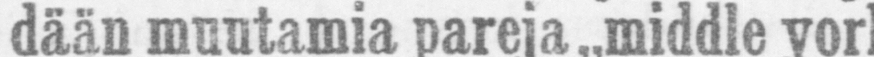schiren" porsaita.
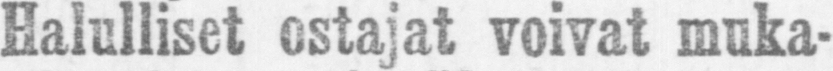Halulliset ostajat voivat muka-
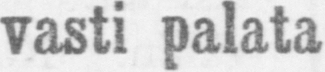vasti palata yöjunilla.
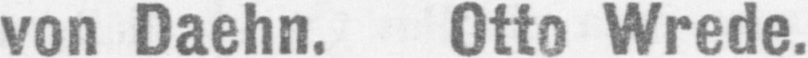A. von Daehn. Otto Wrede.
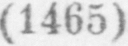(1465)
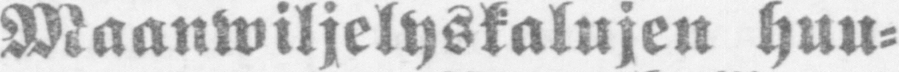Maanwiljelyskalujen huu-
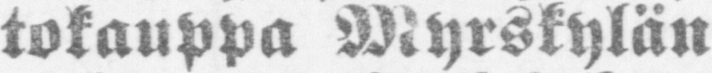tokauppa Myrskylän
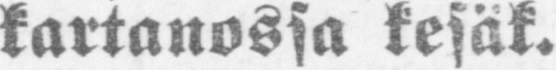kartanossa kesäk.
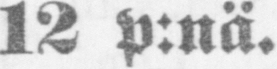12 p:nä.
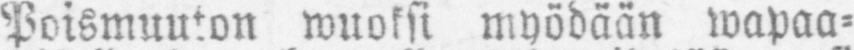Poismuuton vuoksi myödään vapaa-
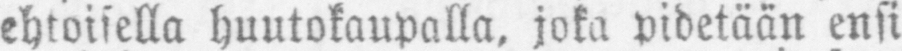ehtoisella huutokaupalla, joka pidetään ensi
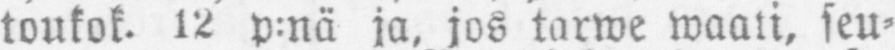toukok- 12 p:nä ja, jos tarme waati, seu-
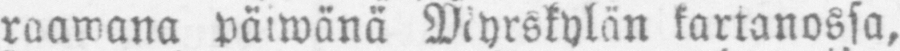raawana päiwänä Myrskylän kartanossa,
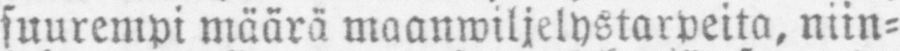suurempi määrä maanwiljelystarpeita, niin-
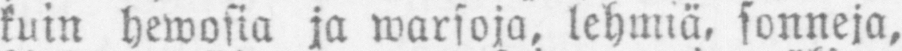kuin hewosia ja warsoja, lehmiä, sonneja,
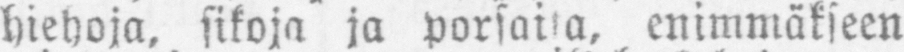hiehoja, sikoja ja porsaita, enimmäkseen
